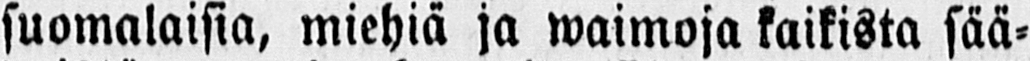suomalaisia, miehiä ja waimoja kaikista sää-
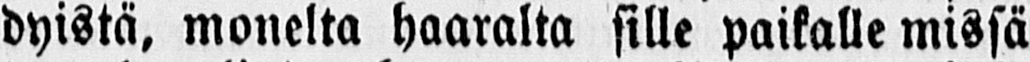dyistä, monelta haaralta sille paikalle missä
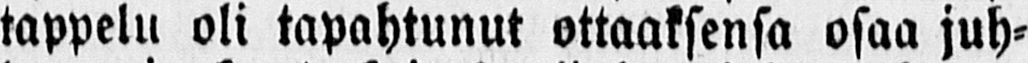tappelu oli tapahtunut ottaaksensa osaa juh-
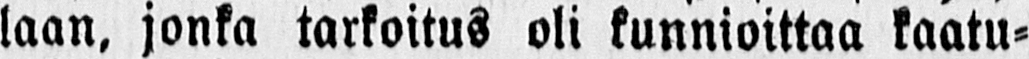laan, jonka tarkoitus oli kunnioittaa kaatu-
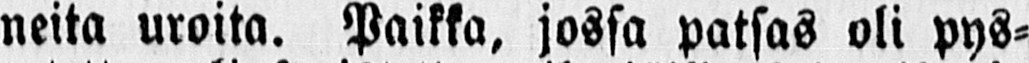neita uroita. Paikka, jossa patsas oli pys-
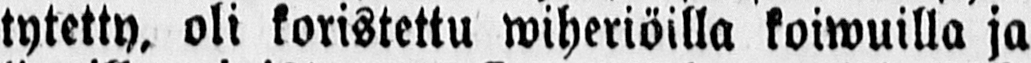tytetty, oli koristettu wiheriöilla koiwuilla ja
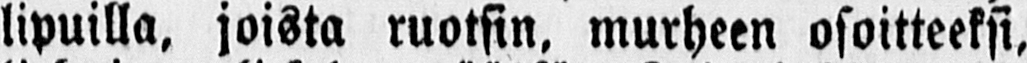lipuilla, joista ruotsin, murheen osoitteeksi,
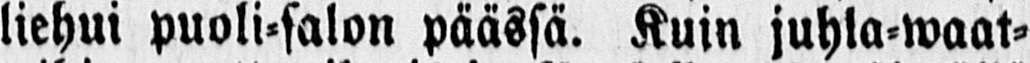liehui puoli-salon päässä. Kuin juhla-waat-
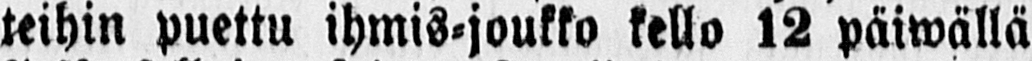teihin puettu ihmis-joukko kello 12 päiwällä
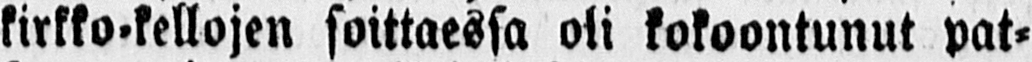kirkko-kellojen soittaessa oli kokoontunut pat-
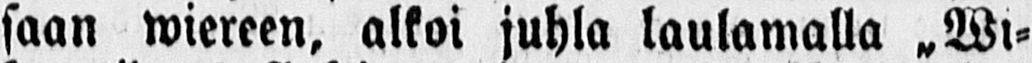saan wiereen, alkoi juhla laulamalla „Wi-
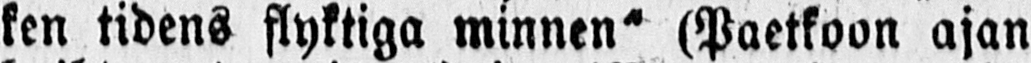ken tidens flyktiga minnen" (Paetkoon ajan
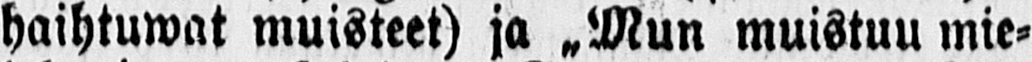haihtuwat muisteet) ja „Mun muistuu mie-
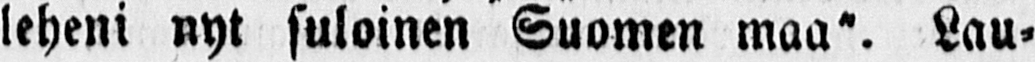leheni nyt suloinen Suomen maa". Lau-
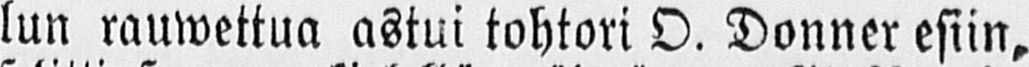lun rauwettua astui tohtori O. Donner esiin,
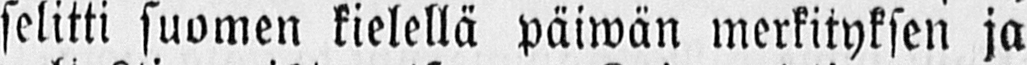selitti suomen kielellä päiwän merkityksen ja
